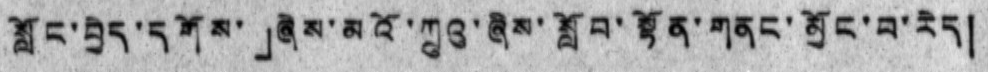སློང་བྱེད་དགོས་」ཞེས་མའོ་ཀྲུའུ་ཞིས་སློབ་སྟོན་གནང་མྱོང་བ་རེད།
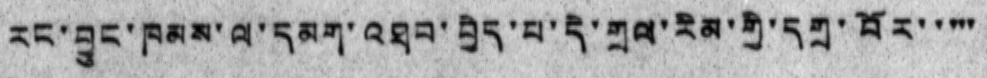རང་བྱུང་ཁམས་ལ་དམག་འཐབ་བྱེད་པ་དེ་གྲལ་རིམ་གྱི་དགྲ་བོར་་་་་
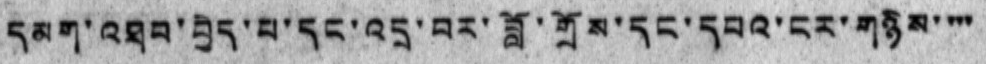དམག་འཐབ་བྱེད་པ་དང་འདྲ་བར་བློ་གྲོས་དང་དཔའ་ངར་གཉིས་་་་
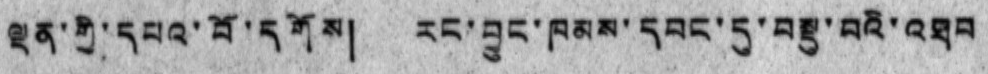ལྡན་གྱི་དཔའ་བོ་དགོས། རང་བྱུང་ཁམས་དབང་དུ་བསྡུ་བའི་འཐབ
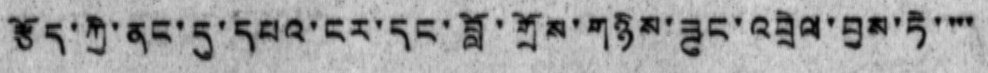རྩོད་ཀྱི་ནང་དུ་དཔའ་ངར་དང་བློ་གྲོས་གཉིས་ཟུང་འབྲེལ་བྱས་ཏེ་་་་
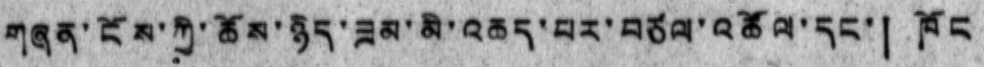གཞན་ངོས་ཀྱི་ཆོས་ཉིད་ཟམ་མི་འཆད་པར་བཙལ་འཚོལ་དང་། ཁོང
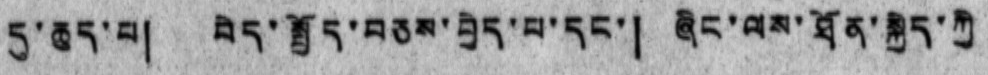དུ་ཆད་པ། བེད་སྤྱོད་བཅས་བྱེད་པ་དང་། ཞིང་ལས་ཐོན་སྐྱེད་ཀྱི་
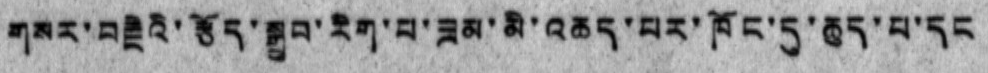གསར་བརྗེའི་རྩོད་སྒྲུབ་རིག་པ་ཟམ་མི་འཆད་པར་ཁོང་དུ་ཆུད་པ་དང
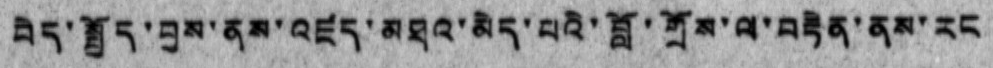བེད་སྤྱོད་བྱས་ནས་འཛད་མཐའ་མེད་པའི་བློ་གྲོས་ལ་བརྟེན་ནས་རང
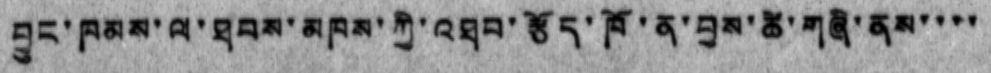བྱུང་ཁམས་ལ་ཐབས་མཁས་ཀྱི་འཐབ་རྩོད་ཁོ་ན་བྱས་ཚེ་གཞི་ནས་་་་
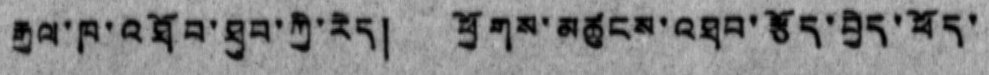རྒྱལ་ཁ་འཐོབ་ཐུབ་ཀྱི་རེད། ཕྱོགས་མཚུངས་འཐབ་རྩོད་བྱེད་ཕོད་
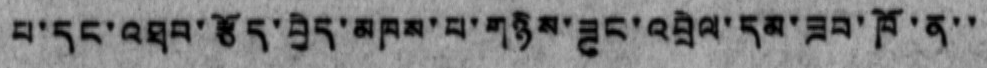བ་དང་འཐབ་རྩོད་བྱེད་མཁས་པ་གཉིས་ཟུང་འབྲེལ་དམ་ཟབ་ཁོ་ན་་
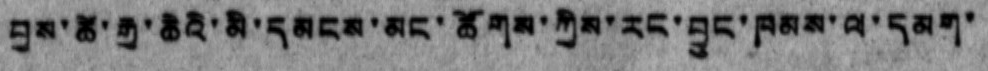བྱས་ཚེ་རྒྱ་ཆེའི་མི་དམངས་མང་ཚོགས་ཀྱིས་རང་བྱུང་ཁམས་ལ་དམག་
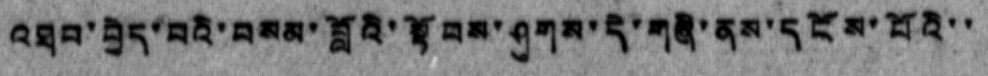འཐབ་བྱེད་པའི་བསམ་བློའི་སྟོབས་ཤུགས་དེ་གཞི་ནས་དངོས་པོའི་་
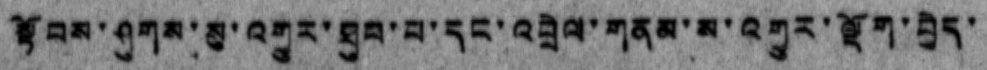སྟོབས་ཤུགས་སུ་འགྱུར་ཐུབ་པ་དང་འབྲེལ་གནམ་ས་འགྱུར་ལྡོག་བྱེད་
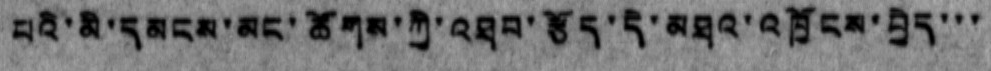པའི་མི་དམངས་མང་ཚོགས་ཀྱི་འཐབ་རྩོད་དེ་མཐའ་འཁྱོངས་བྱེད་་་
